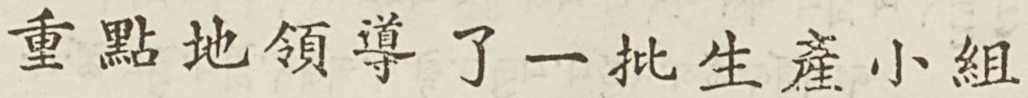重點地領導了一批生產小組
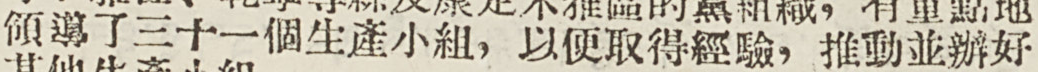領導了三十一個生產小組，以便取得經驗，推動並辦好
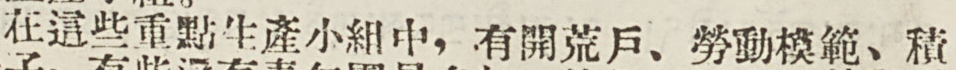在這些重點生產小組中，有開荒戶、勞動模範、積
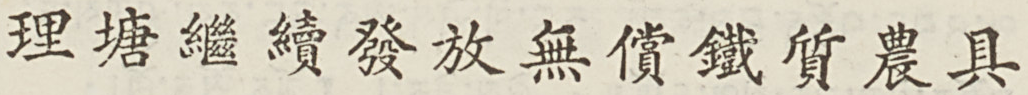理塘繼續發放無償鐵質農具
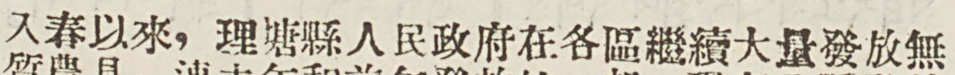入春以來，理塘縣人民政府在各區繼續大量發放無
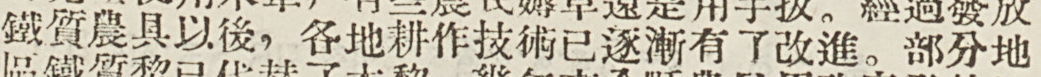鐵質農具以後，各地耕作技術已逐漸有了改進。部分地
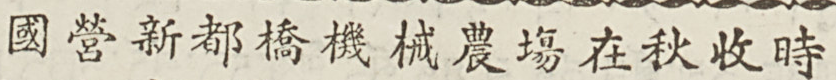國營新都橋機械農塲在秋收時
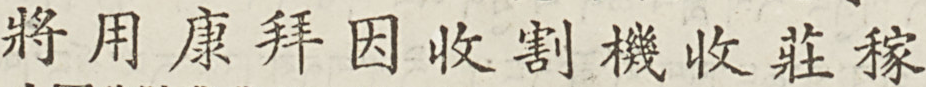將用康拜因收割機收莊稼
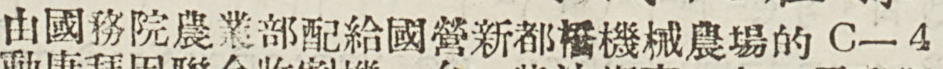由國務院農業部配給國營新都橋機械農場的C-4
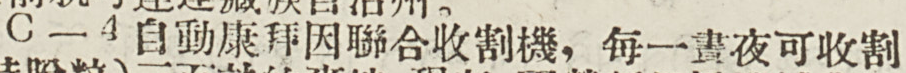C-4自動康拜因聯合收割機，每一晝夜可收割
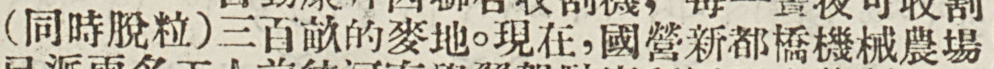（同時脫粒）三百畝的麥地。現在，國營新都橋機械農場
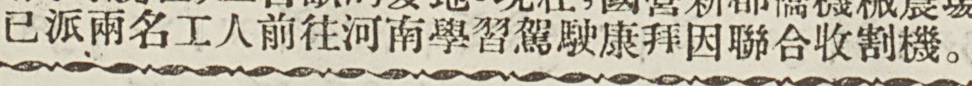已派兩名工人前往河南學習駕駛康拜因聯合收割機。
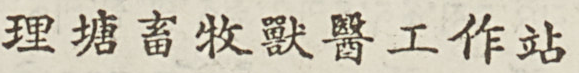理塘畜牧獸醫工作站
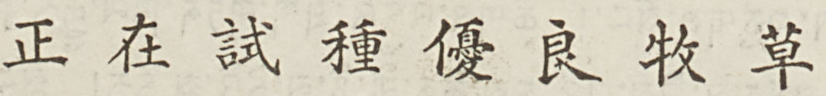正 在 試 種 優 良 牧 草
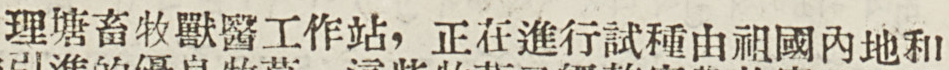理塘畜牧獸醫工作站，正在進行試種由祖國內地和
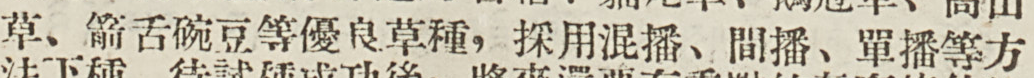草、箭舌豌豆等優良草種，採用混播、間播、單播等方
